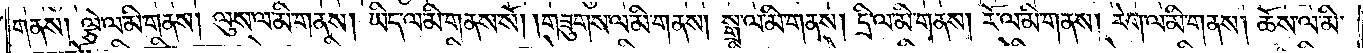གནས། ལྕེ་ལ་མི་གནས། ལུས་ལ་མི་གནས། ཡིད་ལ་མི་གནས་སོ། །གཟུགས་ལ་མི་གནས། སྒྲ་ལ་མི་གནས། དྲི་ལ་མི་གནས། རོ་ལ་མི་གནས། རེག་ལ་མི་གནས། ཆོས་ལ་མི་
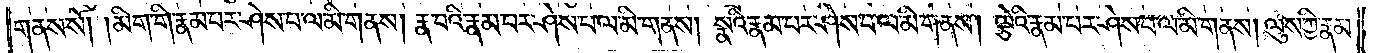གནས་སོ། མིག་གི་རྣམ་པར་ཤེས་པ་ལ་མི་གནས། རྣ་བའི་རྣམ་པར་ཤེས་པ་ལ་མི་གནས། སྣའི་རྣམ་པར་ཤེས་པ་ལ་མི་གནས། ལྕེའི་རྣམ་པར་ཤེས་པ་ལ་མི་གནས། ལུས་ཀྱི་རྣམ་
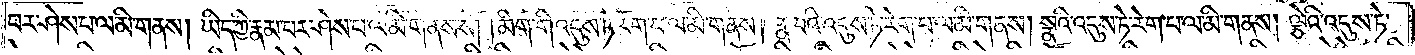བར་ཤེས་པ་ལ་མི་གནས། ཡིད་ཀྱི་རྣམ་པར་ཤེས་པ་ལ་མི་གནས་སོ། །མིག་གི་འདུས་ཏེ་རེག་པ་ལ་མི་གནས། རྣ་བའི་འདུས་ཏེ་རེག་པ་ལ་མི་གནས། སྣའི་འདུས་ཏེ་རེག་པ་ལ་མི་གནས། ལྕེའི་འདུས་ཏེ་
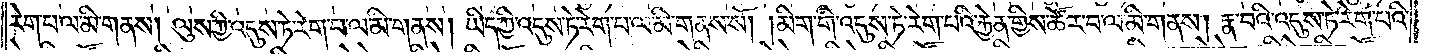རེག་པ་ལ་མི་གནས། ལུས་ཀྱི་འདུས་ཏེ་རེག་པ་ལ་མི་གནས། ཡིད་ཀྱི་འདུས་ཏེ་རེག་པ་ལ་མི་གནས། །མིག་གི་འདུས་ཏེ་རེག་པའི་རྐྱེན་གྱིས་ཚོར་བ་ལ་མི་གནས། རྣ་བའི་འདུས་ཏེ་རེག་པའི་
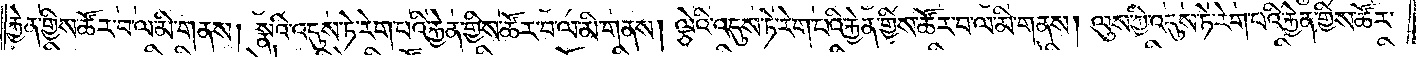རྐྱེན་གྱིས་ཚོར་བ་ལ་མི་གནས། སྣའི་འདུས་ཏེ་རེག་པའི་རྐྱེན་གྱིས་ཚོར་བ་ལ་མི་གནས། ལྕེའི་འདུས་ཏེ་རེག་པའི་རྐྱེན་གྱིས་ཚོར་བ་ལ་མི་གནས། ལུས་ཀྱི་འདུས་ཏེ་རེག་པའི་རྐྱེན་གྱིས་ཚོར་
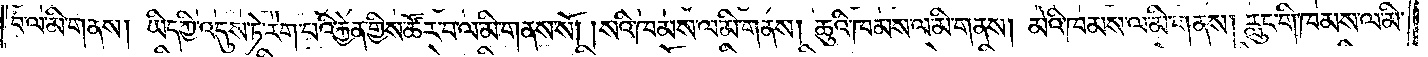བ་ལ་མི་གནས། ཡིད་ཀྱི་འདུས་ཏེ་རེག་པའི་རྐྱེན་གྱིས་ཚོར་བ་ལ་མི་གནས། །སའི་ཁམས་ལ་མི་གནས། ཆུའི་ཁམས་ལ་མི་གནས། མེའི་ཁམས་ལ་མི་གནས། རླུང་གི་ཁམས་ལ་མི་
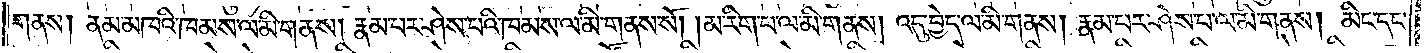གནས། ནམ་མཁའི་ཁམས་ལ་མི་གནས། རྣམ་པར་ཤེས་པའི་ཁམས་ལ་མི་གནས། །མ་རིག་པ་ལ་མི་གནས། འདུ་བྱེད་ལ་མི་གནས། རྣམ་པར་ཤེས་པ་ལ་མི་གནས། མིང་དང་
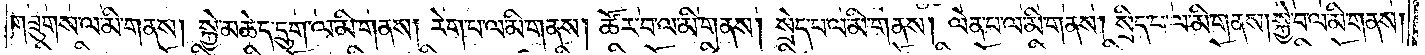གཟུགས་ལ་མི་གནས། སྐྱེ་མཆེད་དྲུག་ལ་མི་གནས། རེག་པ་ལ་མི་གནས། ཚོར་བ་ལ་མི་གནས། སྲེད་པ་ལ་མི་གནས། ལེན་པ་ལ་མི་གནས། སྲིད་པ་ལ་མི་གནས། སྐྱེ་བ་ལ་མི་གནས།
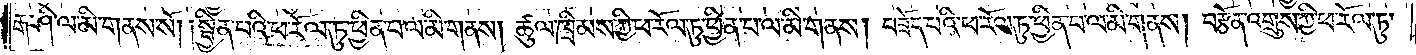རྒ་ཤི་ལ་མི་གནས་སོ༑ ༑སྦྱིན་པའི་ཕ་རོལ་ཏུ་ཕྱིན་པ་ལ་མི་གནས། ཚུལ་ཁྲིམས་ཀྱི་ཕ་རོལ་ཏུ་ཕྱིན་པ་ལ་མི་གནས། བཟོད་པའི་ཕ་རོལ་ཏུ་ཕྱིན་པ་ལ་མི་གནས། བརྩོན་འགྲུས་ཀྱི་ཕ་རོལ་ཏུ་
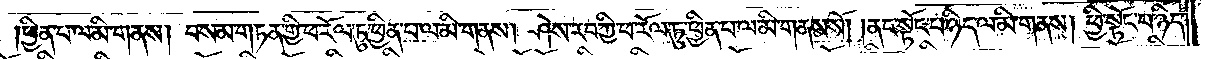༏ཕྱིན་པ་ལ་མི་གནས། བསམ་གཏན་གྱི་ཕ་རོལ་ཏུ་ཕྱིན་པ་ལ་མི་གནས། ཤེས་རབ་ཀྱི་ཕ་རོལ་ཏུ་ཕྱིན་པ་ལ་མི་གནས་སོ། །ནང་སྟོང་པ་ཉིད་ལ་མི་གནས། ཕྱི་སྟོང་པ་ཉིད་
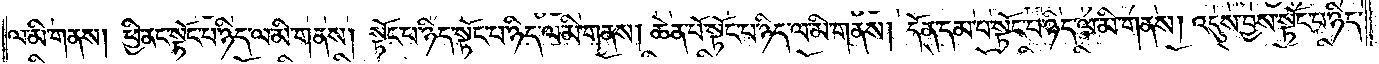ལ་མི་གནས། ཕྱི་ནང་སྟོང་པ་ཉིད་ལ་མི་གནས། སྟོང་པ་ཉིད་སྟོང་པ་ཉིད་ལ་མི་གནས། ཆེན་པོ་སྟོང་པ་ཉིད་ལ་མི་གནས། དོན་དམ་པ་སྟོང་པ་ཉིད་ལ་མི་གནས། འདུས་བྱས་སྟོང་པ་ཉིད་
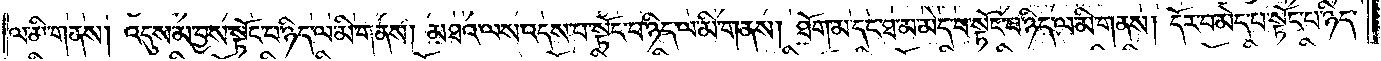ལ་མི་གནས། འདུས་མ་བྱས་སྟོང་པ་ཉིད་ལ་མི་གནས། མཐའ་ལས་འདས་པ་སྟོང་པ་ཉིད་ལ་མི་གནས། ཐོག་མ་དང་ཐ་མ་མེད་པ་སྟོང་པ་ཉིད་ལ་མི་གནས། དོར་བ་མེད་པ་སྟོང་པ་ཉིད་
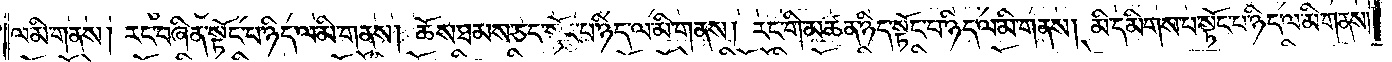ལ་མི་གནས། རང་བཞིན་སྟོང་པ་ཉིད་ལ་མི་གནས། ཆོས་ཐམས་ཅད་སྟོང་པ་ཉིད་ལ་མི་གནས། རང་གི་མཚན་ཉིད་སྟོང་པ་ཉིད་ལ་མི་གནས། མི་དམིགས་པ་སྟོང་པ་ཉིད་ལ་མི་གནས།
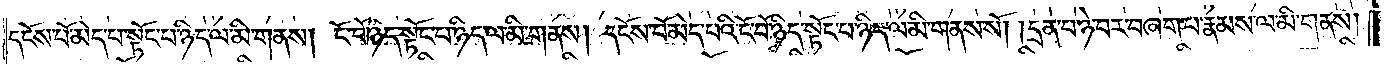དངོས་པོ་མེད་པ་སྟོང་པ་ཉིད་ལ་མི་གནས། ངོ་བོ་ཉིད་སྟོང་པ་ཉིད་ལ་མི་གནས། དངོས་པོ་མེད་པའི་ངོ་བོ་ཉིད་སྟོང་པ་ཉིད་ལ་མི་གནས་སོ། །དྲན་པ་ཉེ་བར་བཞག་པ་རྣམས་ལ་མི་གནས།
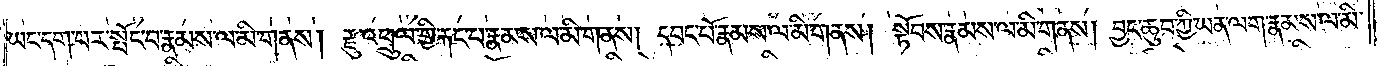ཡང་དག་པར་སྤོང་བ་རྣམས་ལ་མི་གནས། རྫུ་འཕྲུལ་གྱི་རྐང་པ་རྣམས་ལ་མི་གནས། དབང་པོ་རྣམས་ལ་མི་གནས། སྟོབས་རྣམས་ལ་མི་གནས། བྱང་ཆུབ་ཀྱི་ཡན་ལག་རྣམས་ལ་མི་
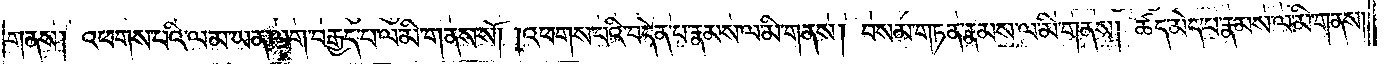གནས། འཕགས་པའི་ལམ་ཡན་ལག་བརྒྱད་པ་ལ་མི་གནས་སོ། །འཕགས་པའི་བདེན་པ་རྣམས་ལ་མི་གནས། བསམ་གཏན་རྣམས་ལ་མི་གནས། ཚད་མེད་པ་རྣམས་ལ་མི་གནས།
